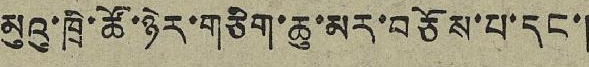མུའུ་ཁྲི་ཚོ་ཉེར་གཅིག་ཆུ་མར་བཅོས་པ་དང་།
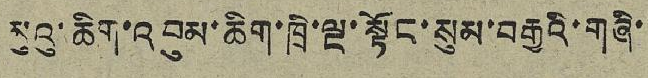མུའུ་ཆིག་འབུམ་ཆིག་ཁྲི་ལྔ་སྟོང་སུམ་བརྒྱའི་གཞི་
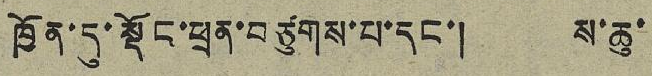ཁྱོན་དུ་སྡོང་ཕྲན་བཙུགས་པ་དང་། ས་ཆུ་
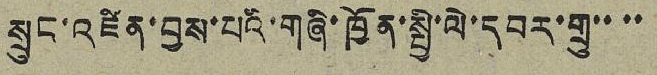སྲུང་འཛིན་བྱས་པའི་གཞི་ཁྱོན་སྤྱི་ལེ་དབར་གྲུ་་་་
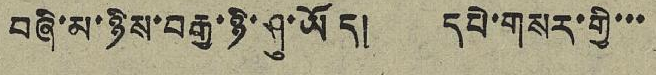བཞི་མ་ཉིས་བརྒྱ་ཉི་ཤུ་ཡོད། དཔེ་གསར་གྱི་་་
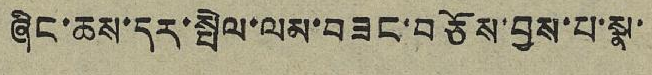ཞིང་ཆས་དར་སྤེལ་ལམ་བཟང་བཅོས་བྱས་པ་སྣ་
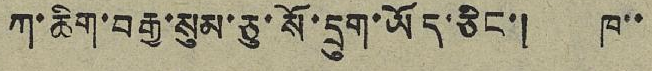ཀ་ཆིག་བརྒྱ་སུམ་ཅུ་སོ་དྲུག་ཡོད་ཅིང་། ཁ་་
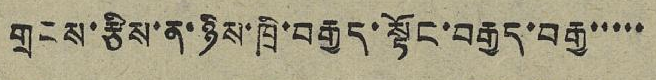གྲངས་རྩིས་ན་ཉིས་ཁྲི་བརྒྱད་སྟོང་བརྒྱད་བརྒྱ་་་་་
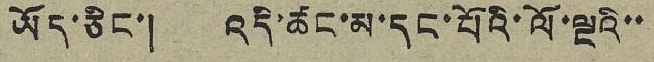ཡོད་ཅིང་། འདི་ཚང་མ་དང་པོའི་ལོ་ལྔའི་་
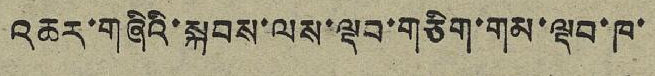འཆར་གཞིའི་སྐབས་ལས་ལྡབ་གཅིག་གམ་ལྡབ་ཁ་
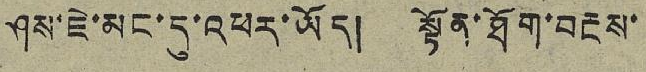ཤས་ཇེ་མང་དུ་འཕར་ཡོད། སྟོན་ཐོག་བརྔས་
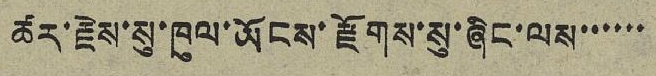ཚར་རྗེས་སུ་ཁུལ་ཡོངས་རྫོགས་སུ་ཞིང་ལས་་་་་་
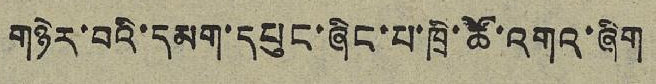གཉེར་བའི་དམག་དཔུང་ཞིང་པ་ཁྲི་ཚོ་འགའ་ཞིག
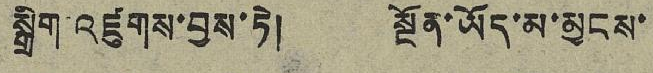སྒྲིག འཛུགས་བྱས་ཏེ། སྔོན་ཡོད་མ་མྱངས་
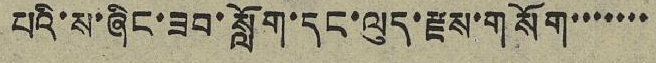པའི་ས་ཞིང་ཟབ་སློག་དང་ལུད་རྫས་གསོག་་་་་་་
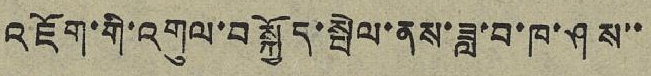འཇོག་གི་འགུལ་བསྐྱོད་སྤེལ་ནས་ཟླ་བ་ཁ་ཤས་་
